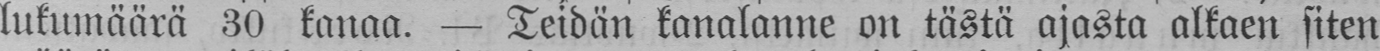lukumäärä 30 kanaa. — Teidän kanalanne on tästä ajasta alkaen siten
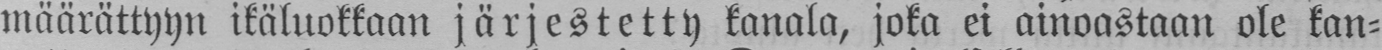määrättyyn ikäluokkaan järjestetty kanala, joka ei ainoastaan ole kan-
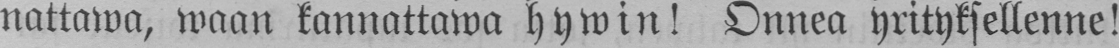nattawa, waan kannattawa hywin! Onnea yrityksellenne!
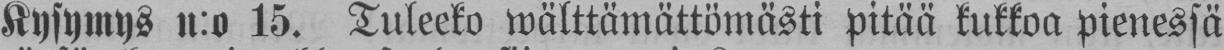Kysymys n:o 15. Tuleeko wälttämättömästi pitää kukkoa pienessä
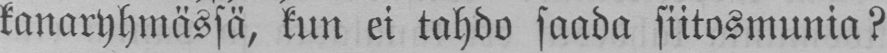kanaryhmässä, kun ei tahdo saada siitosmunia?
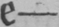—e—
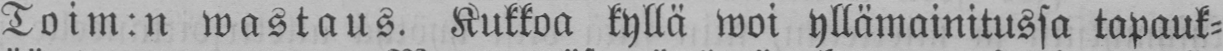Toim:n wastaus. Kukkoa kyllä woi yllämainitussa tapauk-
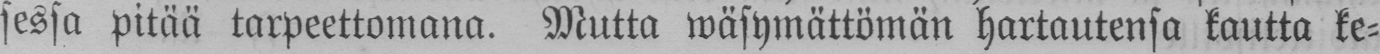sessa pitää tarpeettomana. Mutta wäsymättömän hartautensa kautta ke-
